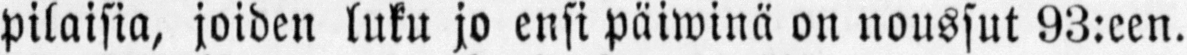pilailla, joiden luku jo ensi päiwinä on noussut 93:een.
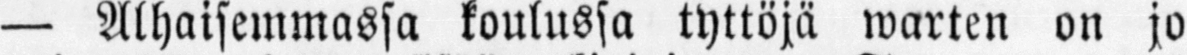— Alhaisemmassa koulussa tyttöjä warten on jo
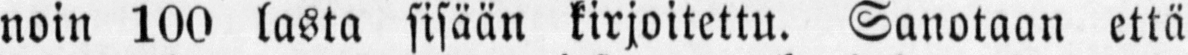noin 100 lasta sisään kirjoitettu. Sanotaan että
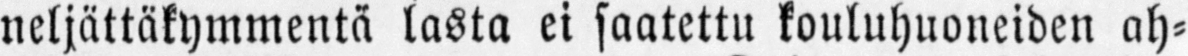neljänäkymmentä lasta ei saatettu kouluhuoneiden ah-
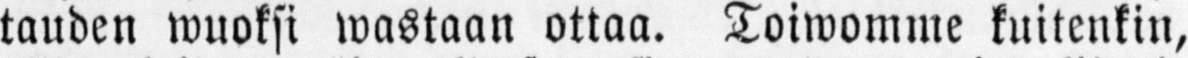tauden wuoksi wastaan ottaa. Toiwomme kuitenkin,
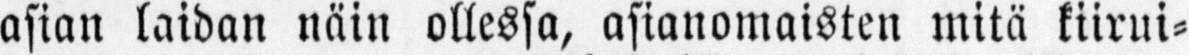asian laidan näin ollessa, asianomaisten mitä kiirui-
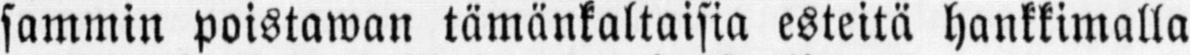sammin poistaman tämänkaltaisia esteitä hankkimalla
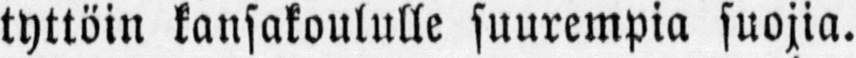tyttöin kansakoululle suurempia suojia.
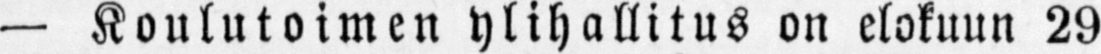— Koulutoimen ylihallitus on elokuun 29
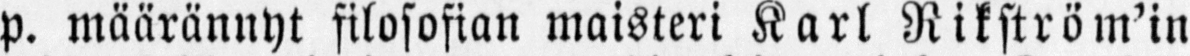p. määrännyt filosofian maisteri Karl Rikström’in
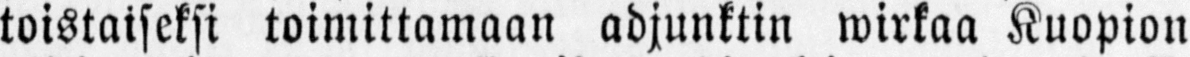toistaiseksi toimittamaan adjunktin wirkaa Kuopion
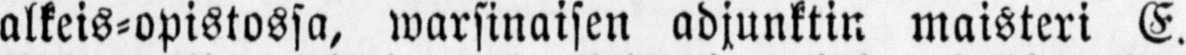alkeis-opistossa, warsinaisen adjunktin maisteri E.
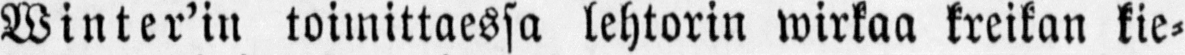Winter’in toimittaessa lehtorin wirkaa kreikan kie-
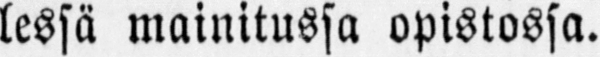lessä mainitussa opistossa.
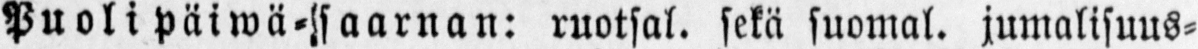Puoli päiwä-saarnan: ruotsal. sekä suomal. jumalisuus-
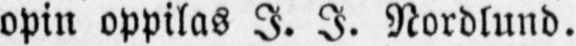opin oppilas I. I. Nordlund.
